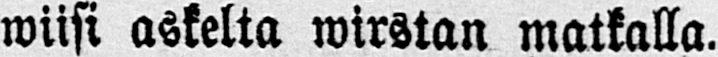wiisi askelta wirstan matkalla.
